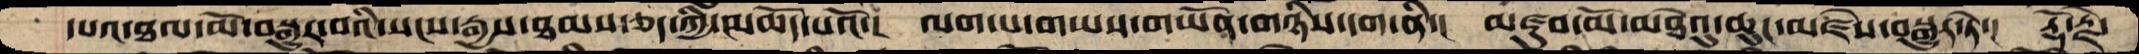དཔའ་ཐལ་མོ་བསྒྱུར་བའི་སངས་རྒྱས་ཐམས་ཅད་ཀྱི་མཆོད་པའོ་།  ལག་པ་གཡས་གཡོན་གཉིས་དག་ནི་།  མཛུབ་མོ་མཐེའུ་ཆུང་མཛེས་བསྒྱུར་ཏེ་།  རྡོ་རྗེ་
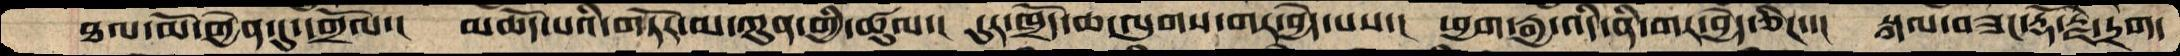ཐལ་མོ་གྱེན་དུ་གྲོལ་།  མཆོད་པའི་གཏོར་མ་ཀུན་གྱི་ཚུལ་།  དུར་ཁྲོད་ཆ་ལུགས་གར་བྱེད་པས་།  ཕྱག་རྒྱ་འདི་ནི་གར་བྱེད་ཅིང་་།  སྐལ་བཟང་རྡོ་རྗེ་དྲག་
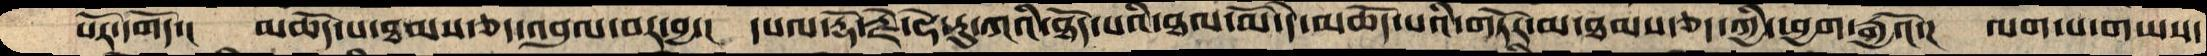པོར་དགོད་།  མཆོད་པ་ཐམས་ཅད་འབུལ་བར་བྱ་།  དཔལ་རྡོ་རྗེ་ཧེ་རུ་ཀའི་ཐོད་པའི་ཐལ་མོ་དེ་མཆོད་པའི་གཏོར་མ་ཐམས་ཅད་ཀྱི་ཕྱག་རྒྱའོ་།  ལག་པ་གཡས་
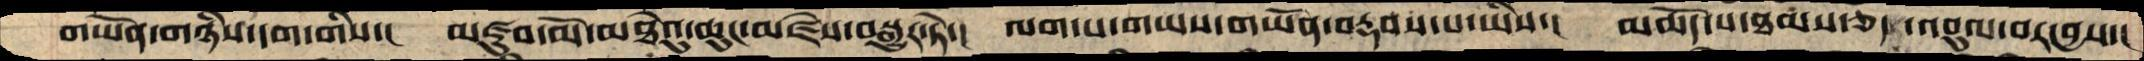གཡོན་གཉིས་དག་གིས་།  མཛུབ་མོ་མཐེའུ་ཆུང་མཛེས་བསྒྱུར་ཏེ་།  ལག་པ་གཡས་གཡོན་བརྡབས་པ་ཡིས་།  མཆོད་པ་ཐམས་ཅད་འབུལ་བར་བྱས་།
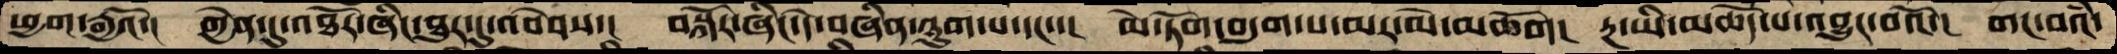ཕྱག་རྒྱའོ་།  གྱེན་དུ་འཐོར་ཞིང་ཐུར་དུ་འབེབས་།  བསྐོར་ཞིང་དེ་བཞིན་ཉུག་པ་དང་་།   མེ་ཏོག་བདུག་པ་མར་མེ་མཆོག།  རྔ་ཡི་མཆོད་པ་འབྱུང་བའོ་།  གང་བའཾ་
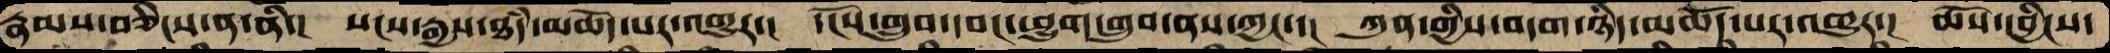རྣམས་བཅིངས་ན་ནི་།  སངས་རྒྱས་ཐཾད་མཆོད་པར་འགྱུར་།  དངོས་གྲུབ་དབང་ཕྱུག་གྲུབ་ནས་ཀྱང་་།  ཀུན་གྱིས་བདག་ཉིད་མཆོད་པར་འགྱུར་།  ཆོས་དབྱིངས་
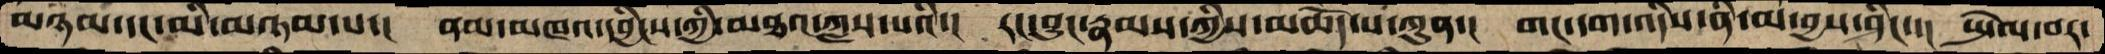མཉམ་དང་མི་མཉམ་པ་།  ནམ་མཁའ་དབྱིངས་ཀྱི་མཐའ་ཀླས་པའི་།  རང་བྱུང་རྣམས་ཀྱིས་མཆོད་པ་ཀུན་།  གང་དག་འདིས་ནི་མ་བྱས་ཤིང་་།  སྤེལ་བར་
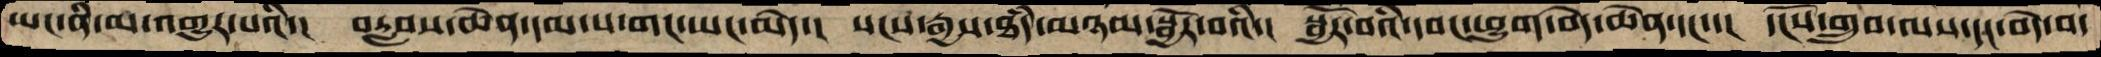ཡང་ནི་མ་འགྱུར་པའི་།  བརླབས་ཆེན་དམ་པ་གང་ཡང་མེད་།  སངས་རྒྱས་ཐཾད་མཉམ་སྦྱོར་བའི་།  སྦྱོར་བའི་དབང་ཕྱུག་བདེ་ཆེན་དང་་།  དངོས་གྲུབ་ལས་དང་བདེ་བ་
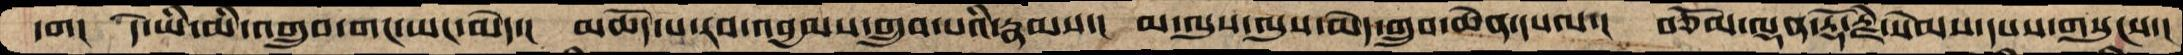དག།  དེ་ཡི་མི་འགྲུབ་གང་ཡང་མེད་།  མཆོད་པ་རབ་འབྱམས་གྲུབ་པའི་རྣམས་།  མ་ལུས་ལུས་མེད་གྲུབ་ཆེན་དཔལ་།  བཅོམ་ལྡན་རྡོ་རྗེ་སེེམས་དསས་གསུངས་།
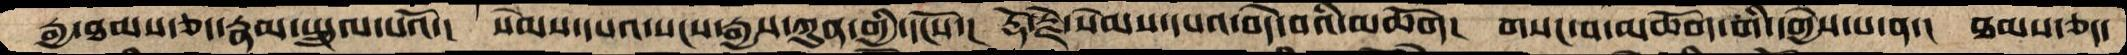རྒྱ་ཐམས་ཅད་རྣམ་སྤྲུལ་པའོ་།  སེམས་དཔའ་སངས་རྒྱས་ཀུན་གྱི་དངོས་།  རྡོ་རྗེ་སེམས་དཔའ་བདེ་བའི་མཆོག།  གསང་བ་མཆོག་གི་དགྱེས་པ་ན་།  ཐམས་ཅད་
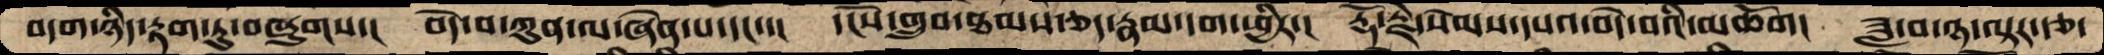བདག་ཉིད་རྟག་ཏུ་བཞུགས་།  བདེ་བ་ཀུན་ལ་ཞེན་པ་དང་་།  དངོས་གྲུབ་ཐམས་ཅད་རྣམ་དག་ཕྱིར་།  རྡོ་རྗེ་སེམས་དཔའ་བདེ་བའི་མཆོག།  ཟླ་བ་ཉ་ལྟར་རྩ་
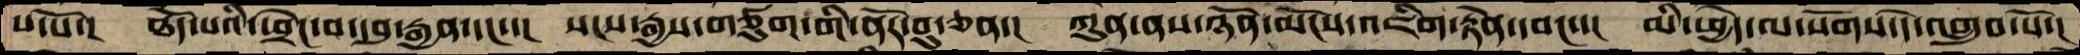པ་པོ་།  ཐོད་པའི་ཕྲེང་བ་དབུ་རྒྱན་དང་་།  སངས་རྒྱས་གཙུག་གི་ནོར་བུ་ཅན་།  ཀུན་ནས་ཉོན་མོངས་འཇིག་རྟེན་དབང་་།  མི་ཕྱེད་ལ་སོགས་དེ་འགྲུབ་པོ་།
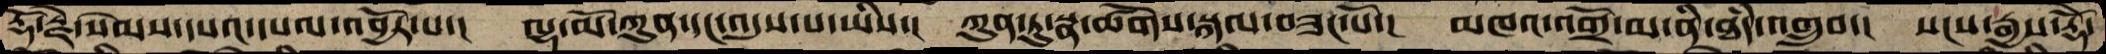རྡོ་རྗེ་སེམས་དཔའ་དཔལ་འབྱོར་པ་།  ལྷ་མོ་ཀུན་དང་འདུས་པ་ཡིས་།  ཀུན་ཏུ་སྣ་ཚོགས་སྐལ་བཟང་པོ་།  མཁའ་འགྲོ་མ་ནི་ཐཾད་འགྲུབ་།  སངས་རྒྱས་རྡོེ་
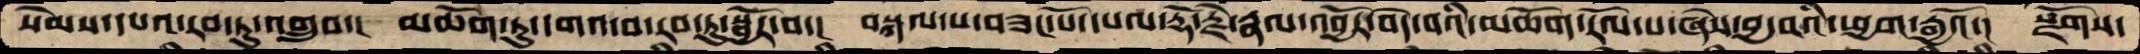སེམས་དཔའ་རབ་ཏུ་འགྲུབ་།  མཆོག་ཏུ་དགའ་བ་རབ་ཏུ་སྦྱོར་བ་།  བསྐལ་པ་བཟང་པོ་དཔལ་རྡོ་རྗེ་རྣལ་འབྱོར་བདེ་བའི་མཆོག་རོལ་པ་ཞེས་བྱ་བའི་ཕྱག་རྒྱའོ་།  སྫོགས་
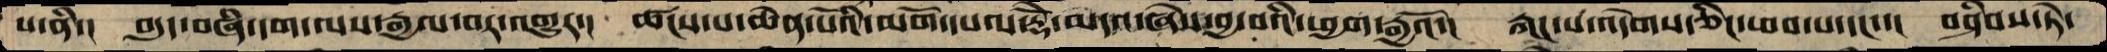པ་ནི་།  བདུད་བཞི་དག་ལས་རྒྱལ་བར་འགྱུར་།  ཚངས་པ་ཆེན་པོའི་མགོ་དཔལ་རྡོེ་མདའ་ཞེས་བྱ་བའི་ཕྱག་རྒྱའོ་།  རྐང་པ་འདེགས་ཅིང་ཕབ་པ་དང་་།  བཤིབས་ཏེ་
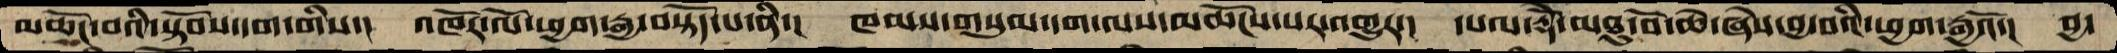མཆོང་བའི་སྟོབས་དག་གིས་།  འཁོར་ལོ་ཕྱག་རྒྱ་བསྟོད་པ་ནི་།  ཁམས་གསུམ་དག་ལས་མཆོངས་པར་འགྱུར་།  དཔལ་རྡོེ་མཐུ་བོ་ཆེ་ཞེས་བྱ་བའི་ཕྱག་རྒྱའོ་།  བྱ་
